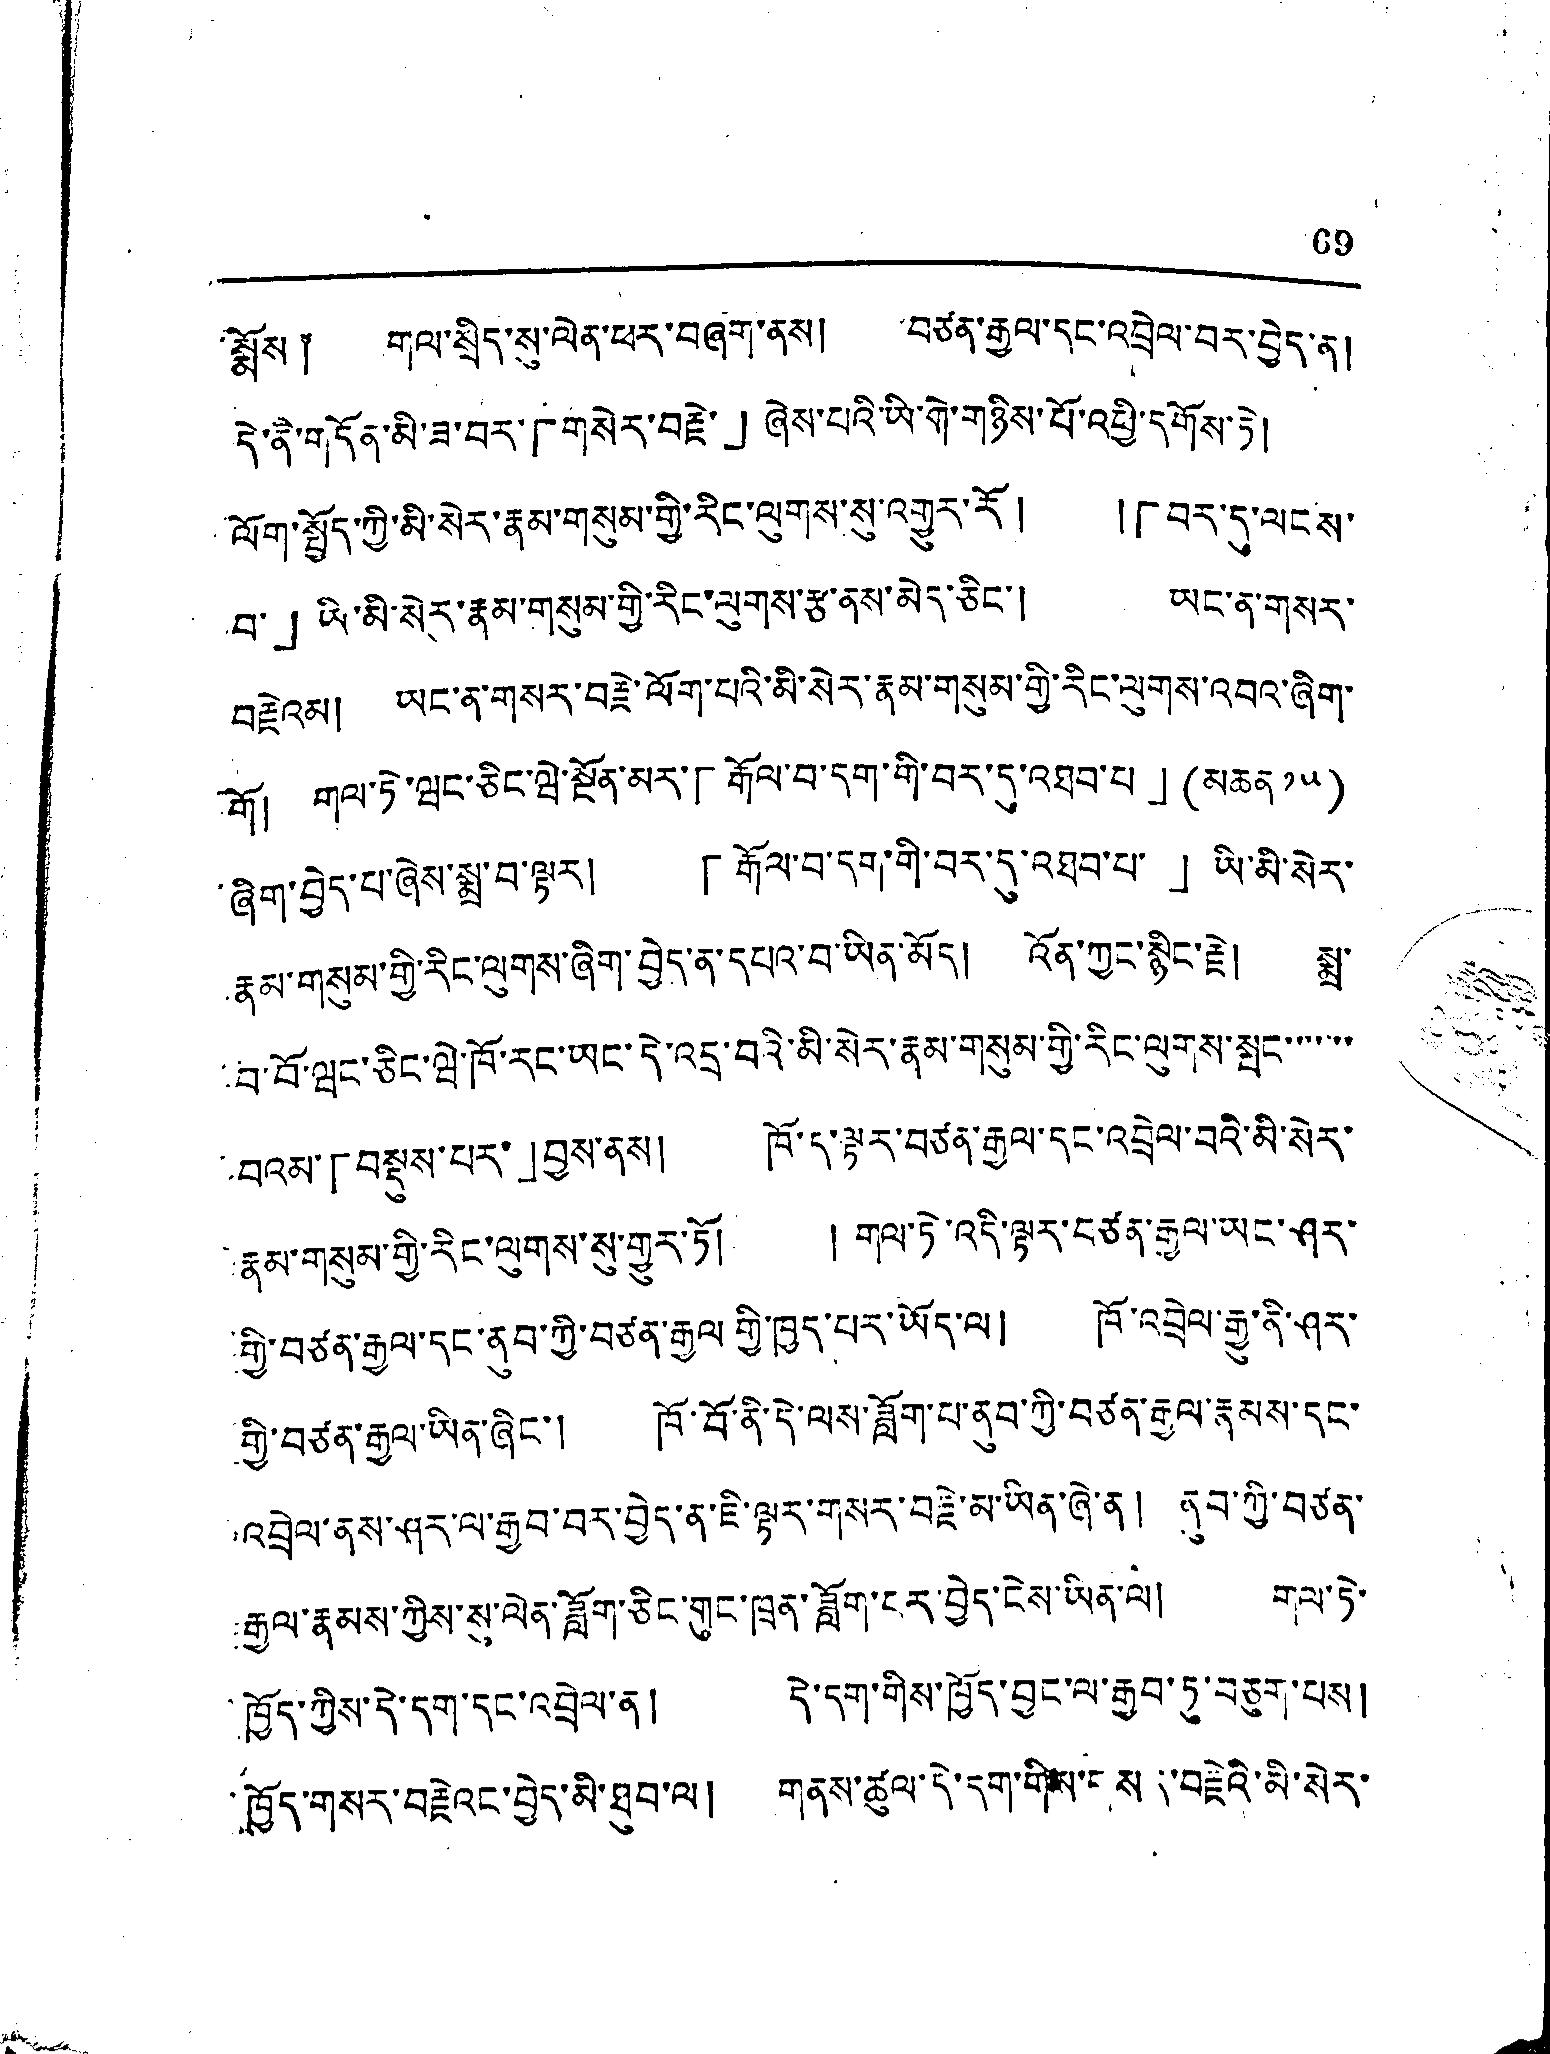69
སྨོས ༐ གལ་སྲིད་སུ་ལེན་ཕར་བཞག་ནས། བཙན་རྒྱལ་དང་འབྲེལ་བར་བྱེད་ན་
དེ་ནི་གདོན་མི་ཟ་བར་「གསེར་བརྗེ་」ཞེས་པའི་ཡི་གེ་གཉིས་པོ་འཕྱི་དགོས་དེ།
ལོག་སྤྱོད་ཀྱི་མི་སེར་རྣམ་གསུམ་གྱི་རིང་ལུགས་སུ་འགྱུར་རོ། །「བར་དུ་ལངས་
བ་」ཡི་མི་སེར་རྣམ་གསུམ་གྱི་རིང་ལུགས་རྩ་ནས་མེད་ཅིང་། ཡང་ན་གསར་
བརྗེའམ། ཡང་ན་གསར་བརྗེ་ལོག་པའི་མི་སེར་རྣམ་གསུམ་གྱི་རིང་ལུགས་འབའ་ཞིག་
གོ། གལ་ཏེ་ཝང་ཅིང་ཝེ་སྔོན་མར་「རྒོལ་བ་དག་གི་བར་དུ་འཐབ་པ」(མཆན ༡༥)
ཞིག་བྱེད་པ་ཞེས་སྨྲ་བ་ལྟར། 「རྒོལ་བ་དག་གི་བར་དུ་འཐབ་པ་」ཡི་མི་སེར་
རྣམ་གསུམ་གྱི་རིང་ལུགས་ཞིག་བྱེད་ན་དཔའ་བ་ཡིན་མོད། འོན་ཀྱང་སྙིང་རྗེ། སྨྲ་
བྱ་བོ་ཝང་ཅིང་ཝེ་ཁོ་རང་ཡང་དེ་འདྲ་བའི་མི་སེར་རྣམ་གསུམ་གྱི་རིང་ལུགས་སྤང་་་་་་་
བའམ་「བསྡུས་པར་」བྱས་ནས། ཁོ་ད་སྟར་བཙན་རྒྱལ་དང་འབྲེལ་བའི་མི་སེར་
རྣམ་གསུམ་གྱི་རིང་ལུགས་སུ་གྱུར་ཏོ། ། གལ་ཏེ་འདི་ལྟར་བཙན་རྒྱལ་ཡང་ཤར་
གྱི་བཙན་རྒྱལ་དང་ནུབ་ཀྱི་བཙན་རྒྱལ་གྱི་ཁྱད་པར་ཡོད་ལ། ཁོ་འབྲེལ་རྒྱུ་ནི་ཤར་
གྱི་བཙན་རྒྱལ་ཡིན་ཞིང་། ཁོ་བོ་ནི་དེ་ལས་ཟློག་པ་ནུབ་ཀྱི་བཙན་རྒྱལ་རྣམས་དང་
འབྲེལ་ནས་ཤར་ལ་རྒྱབ་བར་བྱེད་ན་ཇི་ལྟར་གསར་བརྗེ་མ་ཡིན་ཞེ་ན། ནུབ་ཀྱི་བཙན་
རྒྱལ་རྣམས་ཀྱིས་སུ་ལེན་ཟློག་ཅིང་གུང་ཁྲན་ཟློག་ངར་བྱེད་ངེས་ཡིན་ལ། གལ་ཏེ་
ཁྱོད་ཀྱིས་དེ་དག་དང་འབྲེལ་ན། དེ་དག་གིས་ཁྱོད་བྱུང་ལ་རྒྱབ་ཏུ་བཅུག་པས།
ཁྱོད་གསར་བརྗེའང་བྱེད་མི་ཐུབ་ལ། གནས་ཚུལ་དེ་དག་གིས་གསར་བརྗེའི་མི་སེར་
